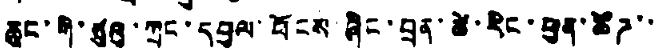ཆུང་གི་ཙུའུ་ཀྲང་དབུལ་ཕོངས་ཞིང་བྲན་ཚེ་རིང་ཕུན་ཚོཌ་་
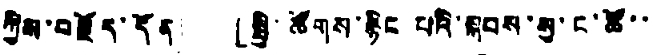ཀྱིས་བརྗོད་དོན། 「སྤྱི་ཚོགས་རྙིང་པའི་སྐབས་སུ་ང་ཚོ་་
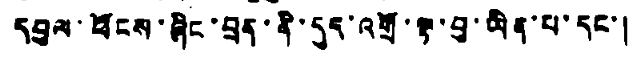དབུལ་ཕོངས་ཞིང་བྲན་ནི་དུད་འགྲོ་ལྟ་བུ་ཡིན་པ་དང་།
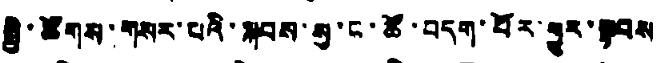སྤྱི་ཚོགས་གསར་པའི་སྐབས་སུ་ང་ཚོ་བདག་པོར་གྱུར་སྟབས
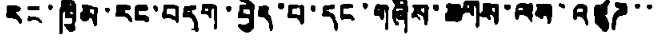རང་ཁྱིམ་རང་བདག་བྱེད་པ་དང་གཞིས་ཆགས་ལས་འཛུཌ་་
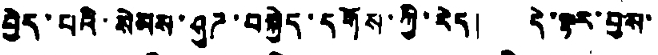བྱེད་པའི་སེམས་ཤུཌ་བསྐྱེད་དགོས་ཀྱི་རེད། དེ་ལྟར་བྱས་
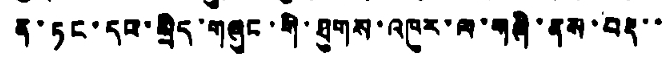ན་ཏང་དང་སྲིད་གཞུང་གི་ཐུགས་འཁུར་ལ་གཞི་ནས་བརྡ་་
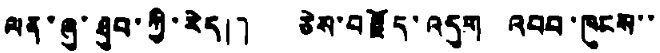ལན་ཞུ་ཐུབ་ཀྱི་རེད།」 ཅེས་བརྗོད་འདུག འབབ་ཁུངས་་
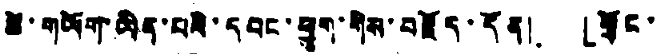ཚེ་གཡོག་ཡིན་པའི་དབང་ཕྱུག་གིས་བརྗོད་དོན། 「གྲོང་
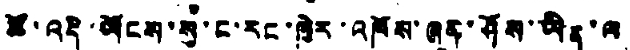ཚོ་འདི་ཡོངས་སུ་ང་རང་ཁྱེར་འཁོས་ཞན་ཤོས་ཡིན་ལ
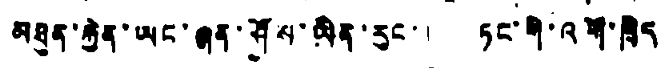མཐུན་རྐྱེན་ཡང་ཞན་ཤོས་ཡིན་རུང་། ཏང་གི་འགོ་ཁྲིད
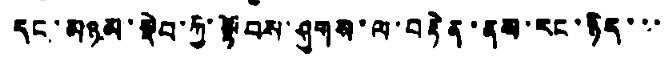དང་མཉམ་སྡེབ་ཀྱི་སྟོབས་ཤུགས་ལ་བརྟེན་ནས་རང་ཉིད་་་
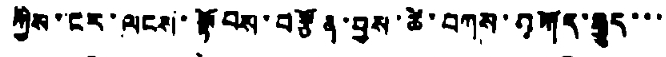ཀྱིས་ངར་ལངས་སྟོབས་བརྩོན་བྱས་ཚེ་བཀས་འཀོད་རྒྱུད་་་
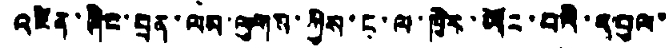འཛིན་ཞིང་བྲན་ལས་ལུགས་ཀྱིས་ང་ལ་ཁྱེར་ཡོང་པའི་དབུལ་
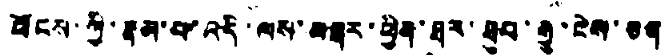ཕོངས་ཀྱི་རྣམ་པ་འདི་ལས་མཐར་ཕྱིན་ཐར་ཐུབ་རྒྱུ་ངེས་ཅན
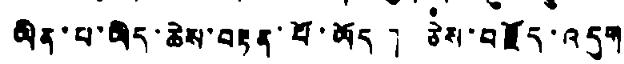ཡིན་པ་ཡིད་ཆེས་བརྟན་པོ་ཡོད」ཅེས་བརྗོད་འདུག
